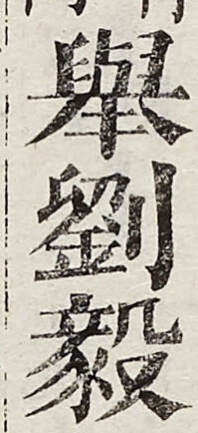舉劉毅
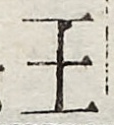王
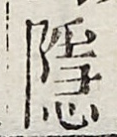隱
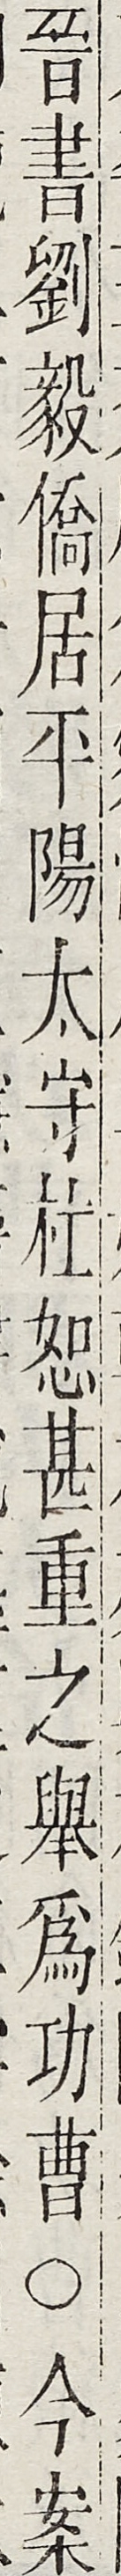晉書劉毅僑居平陽太守杜恕甚重之舉為功曹○今案
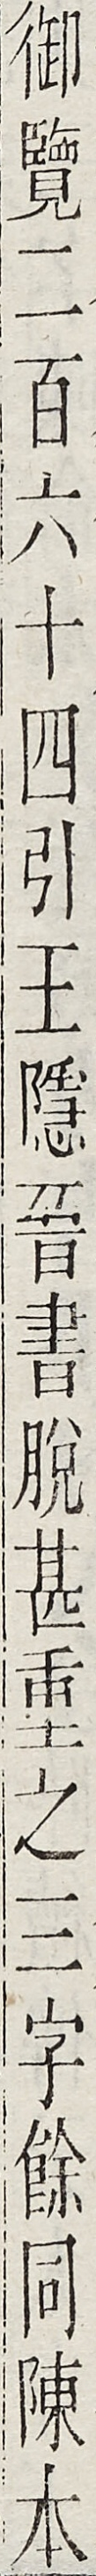御覽二百六十四引王隱晉書脫甚重之三字餘同陳本
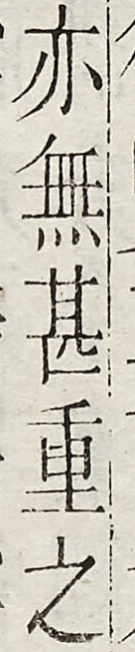亦無甚重之
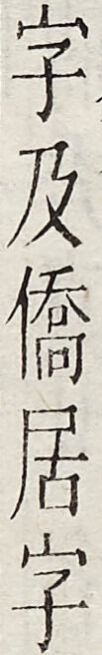字及僑居字
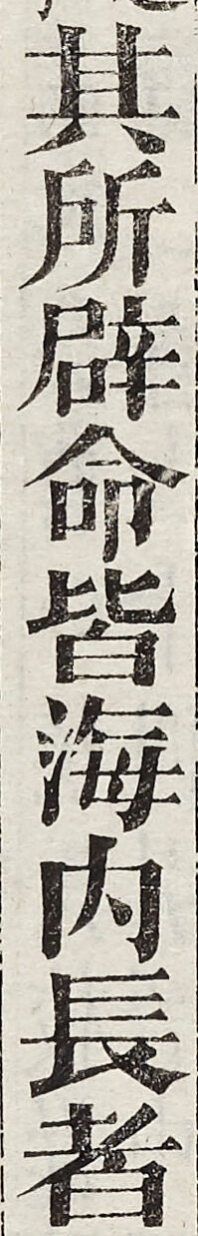其所闢命皆海內長者
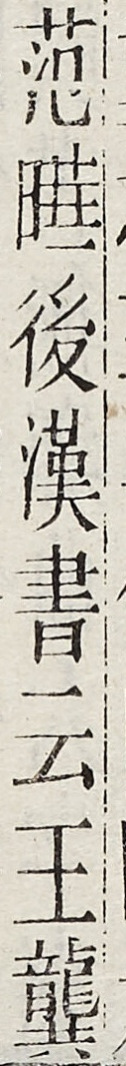範曄後漢書云王龔
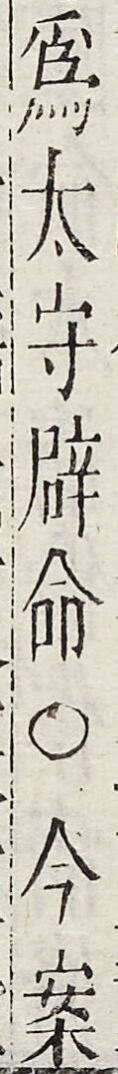為太守闢命○今案
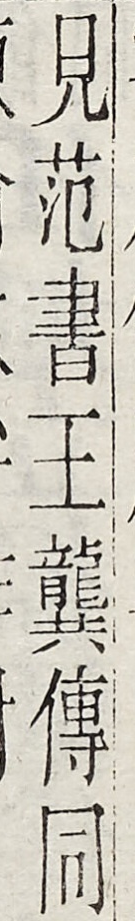見範書王龔傳同
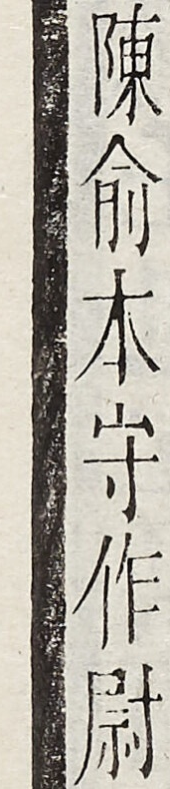陳俞本守作尉
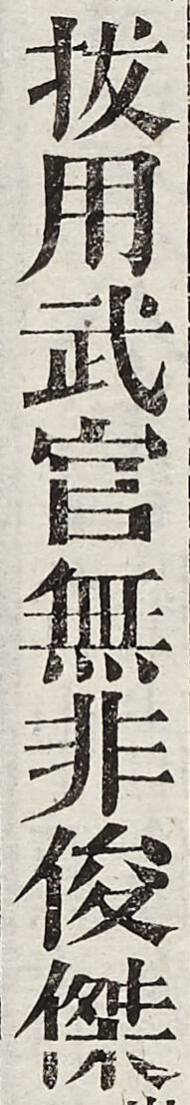拔用武官無非俊
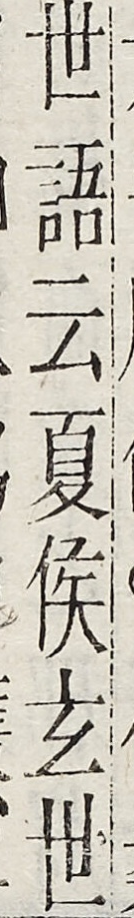世語云夏侯玄世
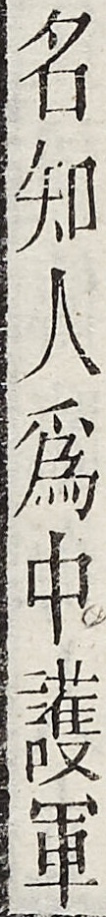名知人為中護軍
